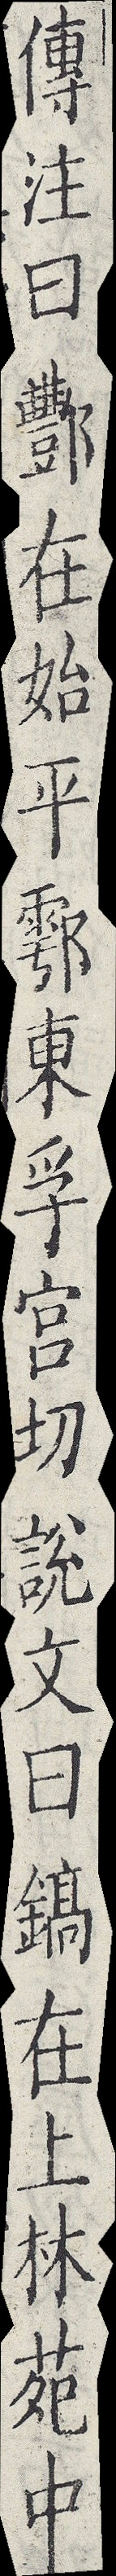傳注曰酆在始平鄠東孚宮切說文曰鎬在上林苑中
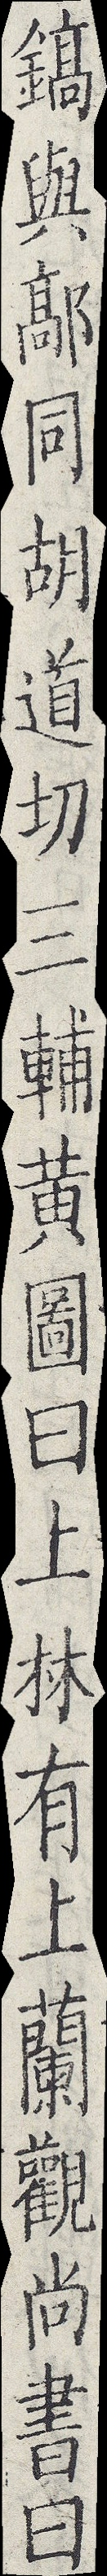鎬與鄗同胡道切三輔黃圖曰上林有上蘭觀尙書曰
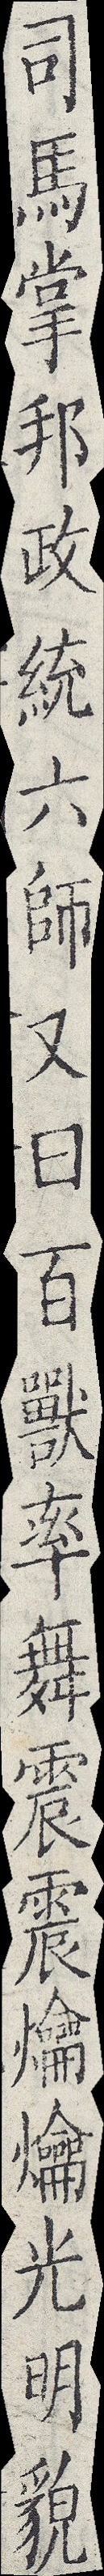司馬掌邦政統六師又曰百獸率舞震震爚爚光明貌
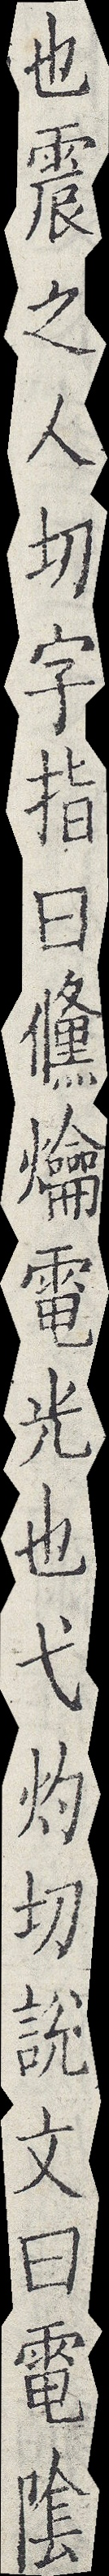也震之人切字指曰儵爚電光也弋灼切說文曰電陰
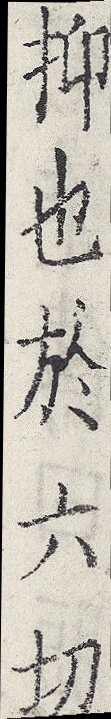抑也於六切
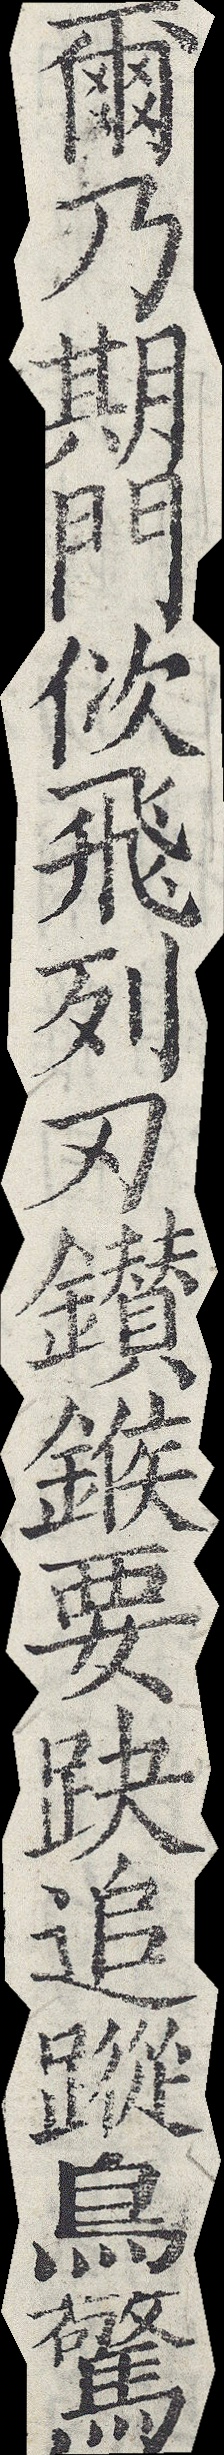爾乃期門佽飛列刃鑽鍭要趹追蹤鳥驚
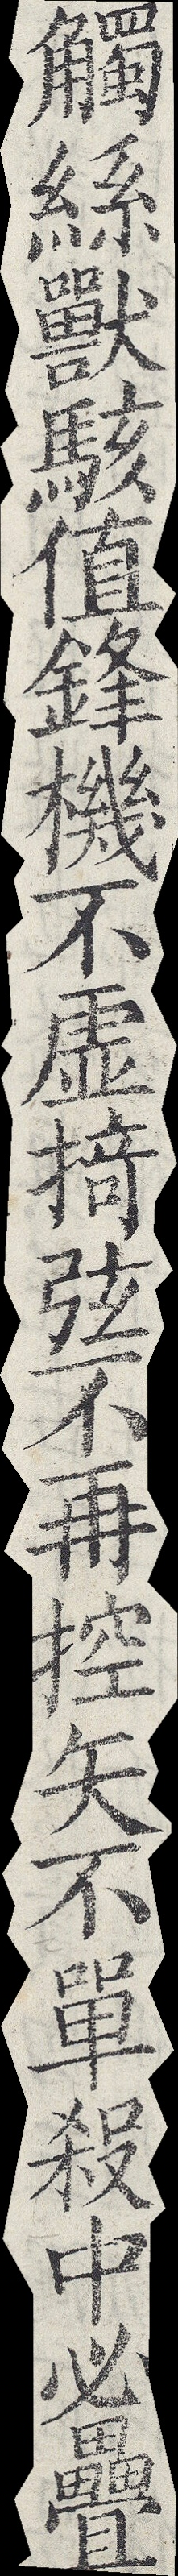觸絲獸駭值鋒機不虛掎弦不再控矢不單殺中必疊
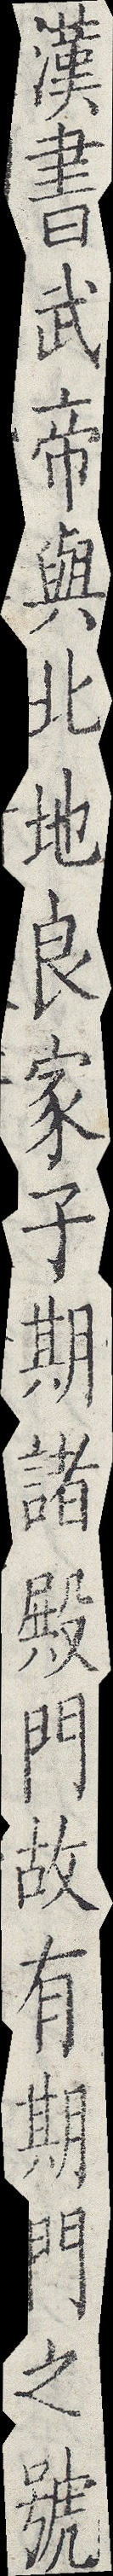漢書武帝與北地良家子期諸殿門故有期門之號
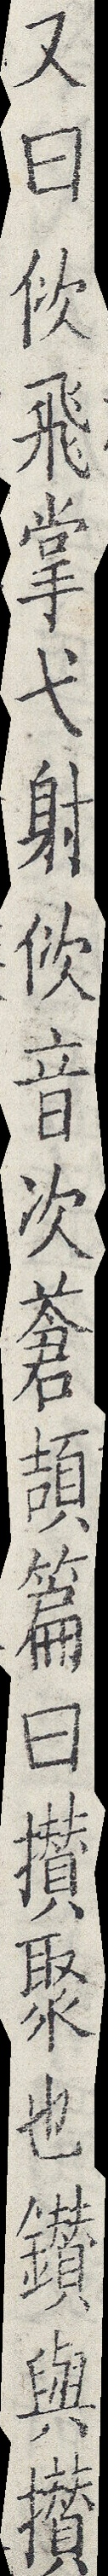又曰佽飛掌弋射佽音次蒼頡篇曰攢聚也鑽與攢
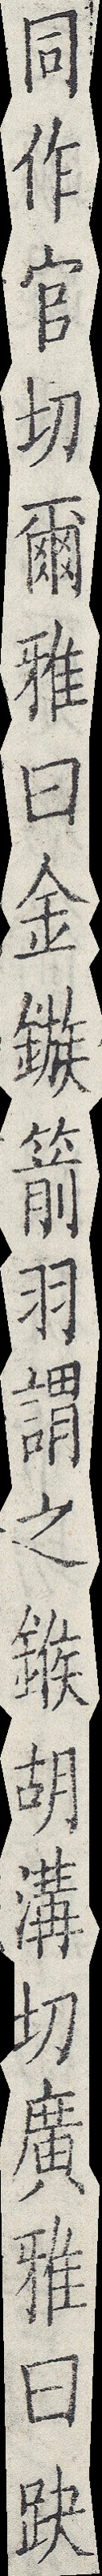同作官切爾雅曰金鏃箭羽謂之鍭胡溝切廣雅曰趹
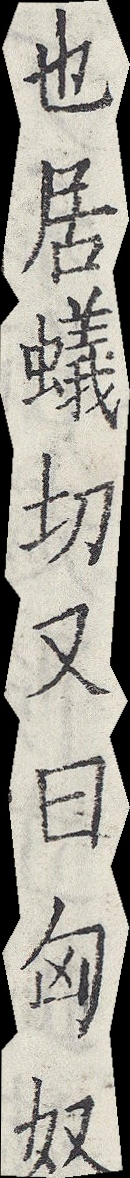也居蟻切又曰匈奴
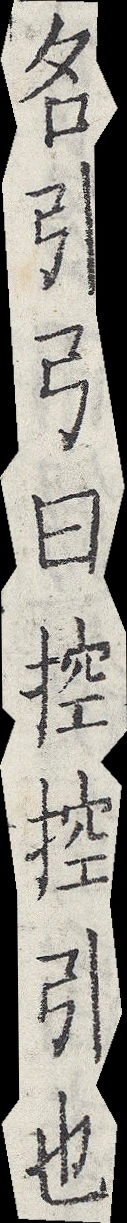名引弓曰控控引也
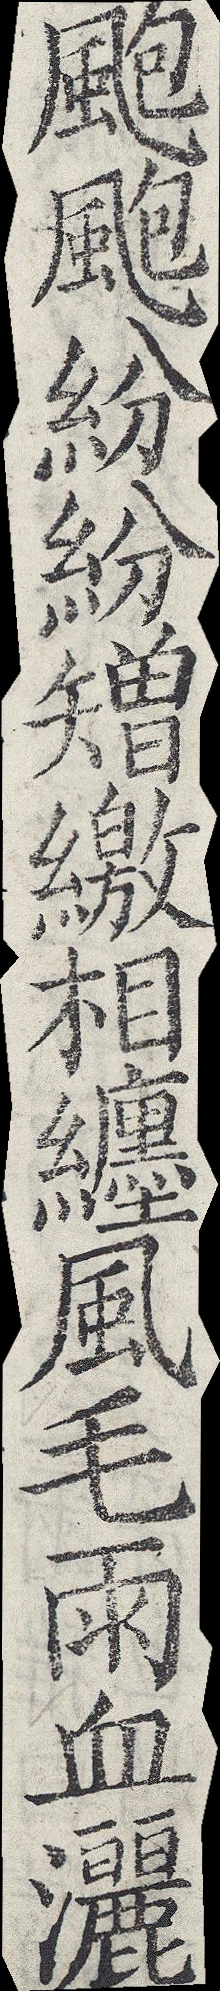颮颮紛紛矰繳相纏風毛雨血灑
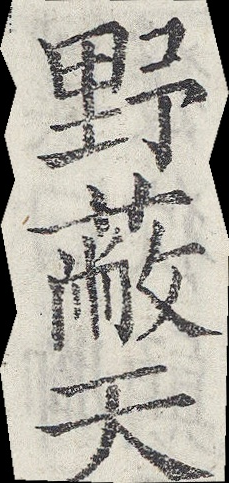野蔽天
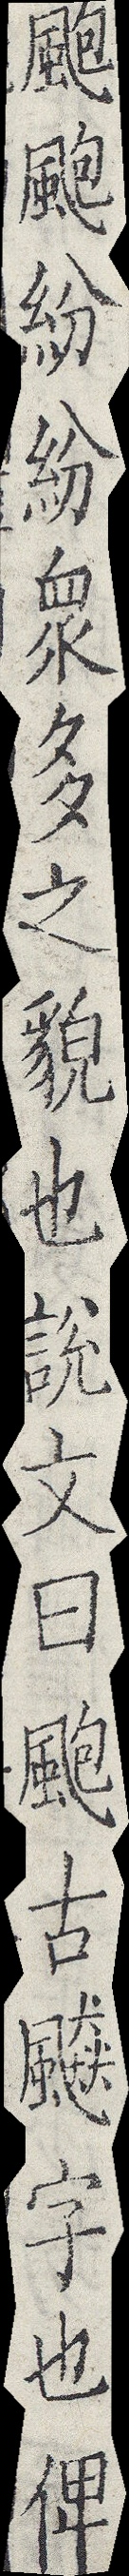颮颮紛紛衆多之貌也說文曰颮古飇字也俾
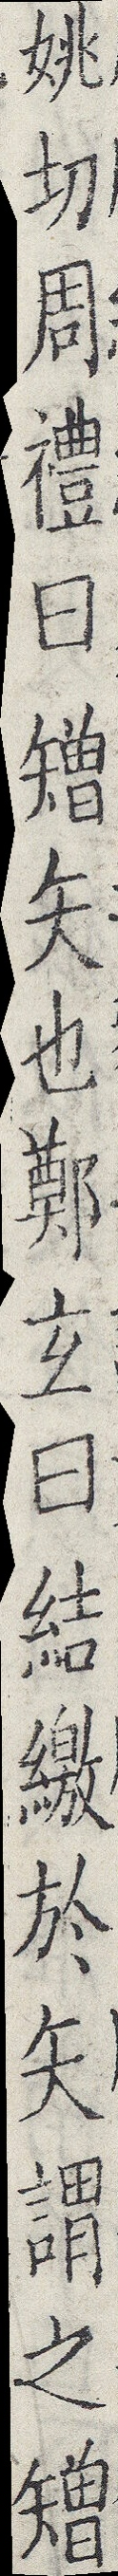姚切周禮曰矰矢也鄭玄曰結繳於矢謂之矰
